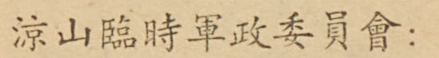涼山臨時軍政委員會：
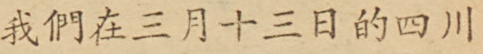我們在三月十三日的四川
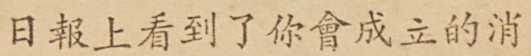日報上看到了你會成立的消
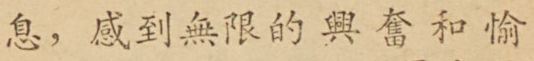息，感到無限的興奮和愉
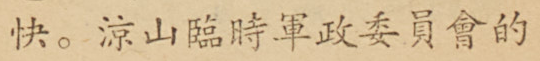快。涼山臨時軍政委員會的
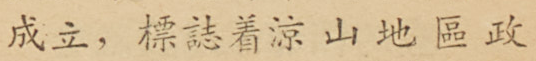成立，標誌着涼山地區政
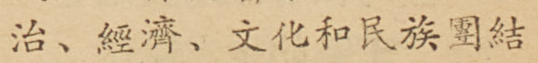治、經濟、文化和民族團結
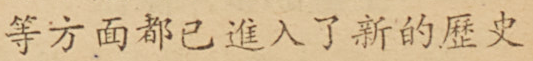等方面都已進入了新的歷史
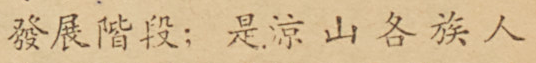發展階段；是涼山各族人
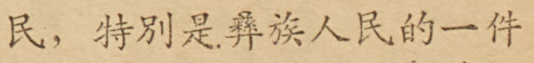民，特別是彝族人民的一件
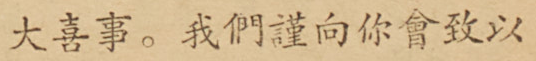大喜事。我們謹向你會致以
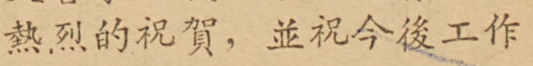熱烈的祝賀，並祝今後工作
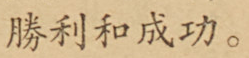勝利和成功。
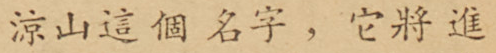涼山這個名字，它將進
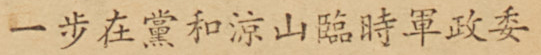一步在黨和涼山臨時軍政委
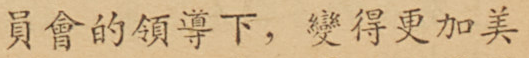員會的領導下，變得更加美
